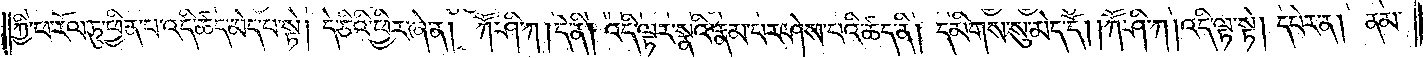ཀྱི་ཕ་རོལ་ཏུ་ཕྱིན་པ་འདི་ཚད་མེད་པ་སྟེ། དེ་ཅིའི་ཕྱིར་ཞེ་ན། ཀཽ་ཤི་ཀ། དེ་ནི། འདི་ལྟར་སྣའི་རྣམ་པར་ཤེས་པའི་ཚད་ནི། དམིགས་སུ་མེད་དོ། །ཀཽ་ཤི་ཀ། འདི་ལྟ་སྟེ། དཔེར་ན། ནམ་
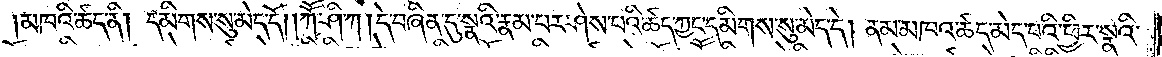མཁའི་ཚད་ནི། དམིགས་སུ་མེད་དོ། །ཀཽ་ཤི་ཀ། དེ་བཞིན་དུ་སྣའི་རྣམ་པར་ཤེས་པའི་ཚད་ཀྱང་དམིགས་སུ་མེད་དེ། ནམ་མཁའ་ཚད་མེད་པའི་ཕྱིར་སྣའི་
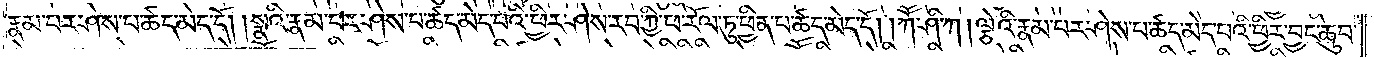རྣམ་པར་ཤེས་པ་ཚད་མེད་དོ། །སྣའི་རྣམ་པར་ཤེས་པ་ཚད་མེད་པའི་ཕྱིར་ཤེས་རབ་ཀྱི་ཕ་རོལ་ཏུ་ཕྱིན་པ་ཚད་མེད་དོ། །ཀཽ་ཤི་ཀ། ལྕེའི་རྣམ་པར་ཤེས་པ་ཚད་མེད་པའི་ཕྱིར་བྱང་ཆུབ་
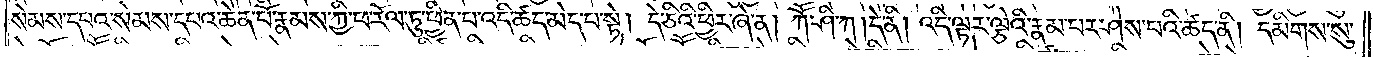སེམས་དཔའ་སེམས་དཔའ་ཆེན་པོ་རྣམས་ཀྱི་ཕ་རོལ་ཏུ་ཕྱིན་པ་འདི་ཚད་མེད་པ་སྟེ། དེ་ཅིའི་ཕྱིར་ཞེ་ན། ཀཽ་ཤི་ཀ། དེ་ནི། འདི་ལྟར་ལྕེའི་རྣམ་པར་ཤེས་པའི་ཚད་ནི། དམིགས་སུ་
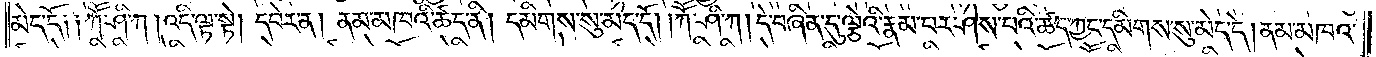མེད་དོ། །ཀཽ་ཤི་ཀ། འདི་ལྟ་སྟེ། དཔེར་ན། ནམ་མཁའི་ཚད་ནི། དམིགས་སུ་མེད་དོ། །ཀཽ་ཤི་ཀ། དེ་བཞིན་དུ་ལྕེའི་རྣམ་པར་ཤེས་པའི་ཚད་ཀྱང་དམིགས་སུ་མེད་དེ། ནམ་མཁའ་
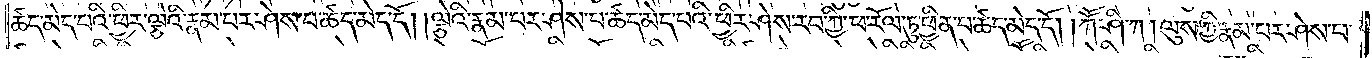ཚད་མེད་པའི་ཕྱིར་ལྕེའི་རྣམ་པར་ཤེས་པ་ཚད་མེད་དོ། །ལྕེའི་རྣམ་པར་ཤེས་པ་ཚད་མེད་པའི་ཕྱིར་ཤེས་རབ་ཀྱི་ཕ་རོལ་ཏུ་ཕྱིན་པ་ཚད་མེད་དོ། །ཀཽ་ཤི་ཀ། ལུས་ཀྱི་རྣམ་པར་ཤེས་པ་
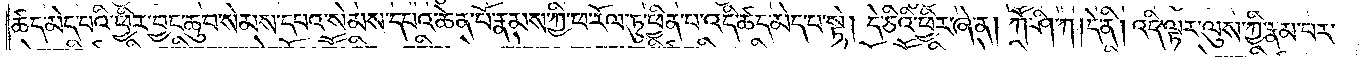ཚད་མེད་པའི་ཕྱིར་བྱང་ཆུབ་སེམས་དཔའ་སེམས་དཔའ་ཆེན་པོ་རྣམས་ཀྱི་ཕ་རོལ་ཏུ་ཕྱིན་པ་འདི་ཚད་མེད་པ་སྟེ། དེ་ཅིའི་ཕྱིར་ཞེ་ན། ཀཽ་ཤི་ཀ། དེ་ནི། འདི་ལྟར་ལུས་ཀྱི་རྣམ་པར་
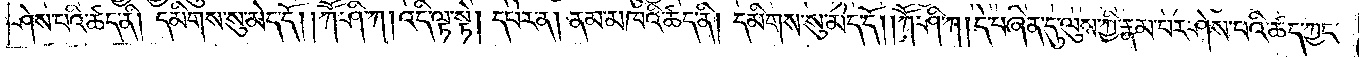ཤེས་པའི་ཚད་ནི། དམིགས་སུ་མེད་དོ། །ཀཽ་ཤི་ཀ། འདི་ལྟ་སྟེ། དཔེར་ན། ནམ་མཁའི་ཚད་ནི། དམིགས་སུ་མེད་དོ། །ཀཽ་ཤི་ཀ། དེ་བཞིན་དུ་ལུས་ཀྱི་རྣམ་པར་ཤེས་པའི་ཚད་ཀྱང་
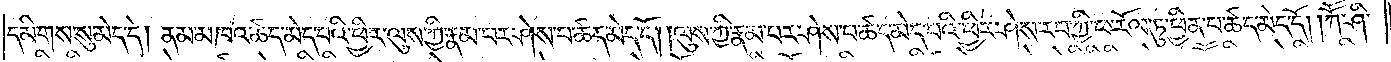དམིགས་སུ་མེད་དེ། ནམ་མཁའ་ཚད་མེད་པའི་ཕྱིར་ལུས་ཀྱི་རྣམ་པར་ཤེས་པ་ཚད་མེད་དོ། །ལུས་ཀྱི་རྣམ་པར་ཤེས་པ་ཚད་མེད་པའི་ཕྱིར་ཤེས་རབ་ཀྱི་ཕ་རོལ་ཏུ་ཕྱིན་པ་ཚད་མེད་དོ། ཀཽ་ཤི་
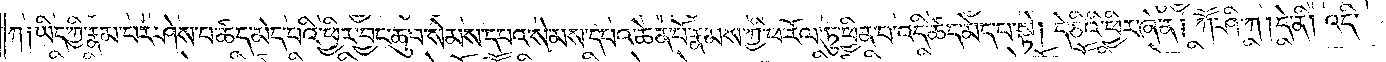ཀ། ཡིད་ཀྱི་རྣམ་པར་ཤེས་པ་ཚད་མེད་པའི་ཕྱིར་བྱང་ཆུབ་སེམས་དཔའ་སེམས་དཔའ་ཆེན་པོ་རྣམས་ཀྱི་ཕ་རོལ་ཏུ་ཕྱིན་པ་འདི་ཚད་མེད་པ་སྟེ། དེ་ཅིའི་ཕྱིར་ཞེ་ན། ཀཽ་ཤི་ཀ། དེ་ནི། འདི་
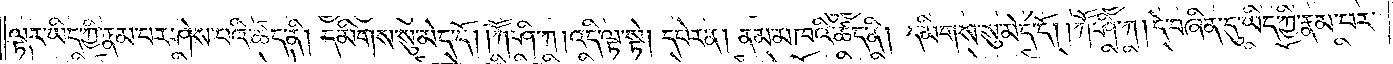ལྟར་ཡིད་ཀྱི་རྣམ་པར་ཤེས་པའི་ཚད་ནི། དམིགས་སུ་མེད་དོ། །ཀཽ་ཤི་ཀ། འདི་ལྟ་སྟེ། དཔེར་ན། ནམ་མཁའི་ཚད་ནི། དམིགས་སུ་མེད་དོ། །ཀཽ་ཤི་ཀ། དེ་བཞིན་དུ་ཡིད་ཀྱི་རྣམ་པར་
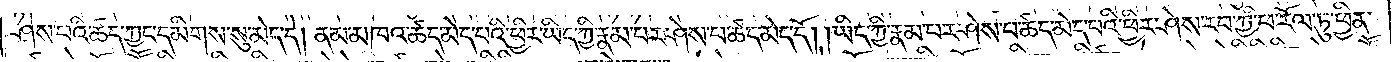ཤེས་པའི་ཚད་ཀྱང་དམིགས་སུ་མེད་དེ། ནམ་མཁའ་ཚད་མེད་པའི་ཕྱིར་ཡིད་ཀྱི་རྣམ་པར་ཤེས་པ་ཚད་མེད་དོ། །ཡིད་ཀྱི་རྣམ་པར་ཤེས་པ་ཚད་མེད་པའི་ཕྱིར་ཤེས་རབ་ཀྱི་ཕ་རོལ་ཏུ་ཕྱིན་
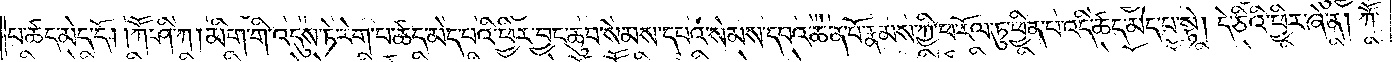པ་ཚད་མེད་དོ། །ཀཽ་ཤི་ཀ། མིག་གི་འདུས་ཏེ་རེག་པ་ཚད་མེད་པའི་ཕྱིར་བྱང་ཆུབ་སེམས་དཔའ་སེམས་དཔའ་ཆེན་པོ་རྣམས་ཀྱི་ཕ་རོལ་ཏུ་ཕྱིན་པ་འདི་ཚད་མེད་པ་སྟེ། དེ་ཅིའི་ཕྱིར་ཞེ་ན། ཀཽ་
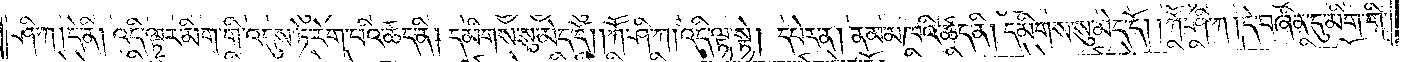ཤི་ཀ། དེ་ནི། འདི་ལྟར་མིག་གི་འདུས་ཏེ་རེག་པའི་ཚད་ནི། དམིགས་སུ་མེད་དོ། །ཀཽ་ཤི་ཀ། འདི་ལྟ་སྟེ། དཔེར་ན། ནམ་མཁའི་ཚད་ནི། དམིགས་སུ་མེད་དོ། །ཀཽ་ཤི་ཀ། དེ་བཞིན་དུ་མིག་གི་
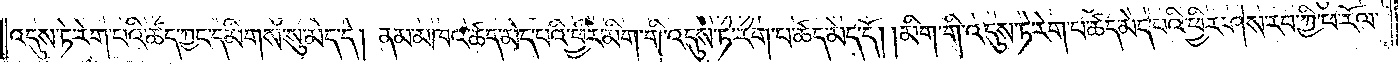འདུས་ཏེ་རེག་པའི་ཚད་ཀྱང་དམིགས་སུ་མེད་དེ། ནམ་མཁའ་ཚད་མེད་པའི་ཕྱིར་མིག་གི་འདུས་ཏེ་རེག་པ་ཚད་མེད་དོ། །མིག་གི་འདུས་ཏེ་རེག་པ་ཚད་མེད་པའི་ཕྱིར་ཤེས་རབ་ཀྱི་ཕ་རོལ་
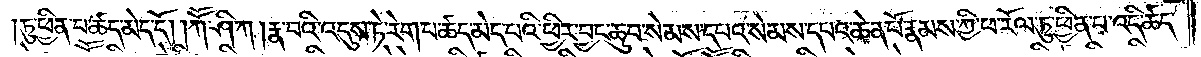ཏུ་ཕྱིན་པ་ཚད་མེད་དོ། །ཀཽ་ཤི་ཀ །རྣ་བའི་འདུས་ཏེ་རེག་པ་ཚད་མེད་པའི་ཕྱིར་བྱང་ཆུབ་སེམས་དཔའ་སེམས་དཔའ་ཆེན་པོ་རྣམས་ཀྱི་ཕ་རོལ་ཏུ་ཕྱིན་པ་འདི་ཚད་
